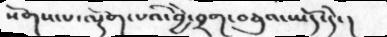སོགས་པ་ལྡོག་པའི་བྱེ་བྲག་བཅུའ་ཡོད་དེ་།
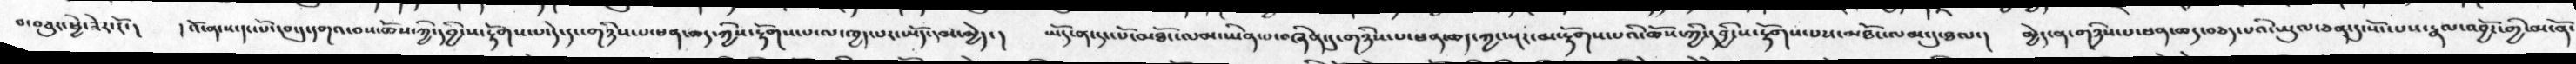བ་བཅུར་ཕྱེ་ཟེར་རོ་།   ། འོ་ན་ས་དང་པོ་རབ་དུ་དགའ་བས་ཆོས་ཀྱི་དབྱིངས་རྟོགས་པ་དེ་དང་གཉིས་པ་ཕན་ཆད་ཀྱིས་རྟོགས་པ་ལ་ཁྱད་པར་ཡོད་དམ་མྱེད་།   ཡོད་ན་དང་པོ་མཐོང་ལམ་ཡིན་པ་བཞིན་དུ་གཉིས་པ་ཕན་ཆད་ཀྱང་སྔར་མ་རྟོགས་པའི་ཆོས་ཀྱི་དབྱིངས་རྟོགས་པས་མཐོང་ལམ་དུ་ཐལ་།   མྱེད་ན་གཉིས་པ་ཕན་ཆད་བཅད་པའི་ཡུལ་ཅན་དུ་སོང་པས་རྣལ་འབྱོར་གྱི་མངོན་
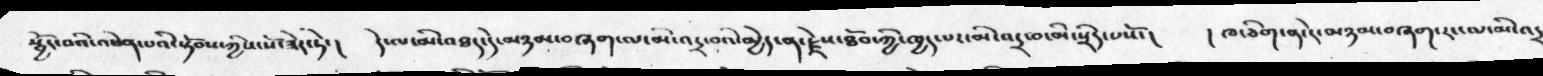སྦྱོར་བའི་འཕེན་པའི་སྟོབས་ཀྱིས་སོ་ཟེར་ཏེ་།    དེ་ལ་མི་འཐད་དེ་མཉམ་བཞག་ལ་མི་འདྲ་བའི་མྱེད་ན་རྗེས་ཐོབ་ཀྱི་ཁྱད་པར་མི་འདྲ་བ་མི་སྲིད་པསོ་།   ། ཁ་ཅིག་ན་རེ་མཉམ་བཞག་རང་ལ་མི་འདྲ
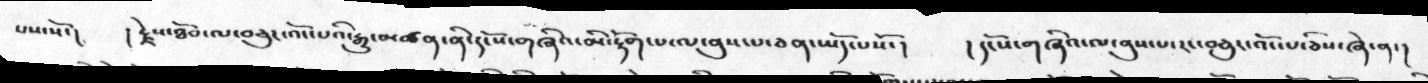པས་སོ་།   ། རྗེས་ཐོབ་ལ་བཅུར་འོང་པའི་རྒྱུ་མཚན་ནི་དང་པོ་གཞིའ་མི་རྟོག་པ་ལ་ནུས་པ་ཅན་ཡོད་པསོ་།    ། དངོས་གཞིའ་ལ་ནུས་པ་རང་བཅུར་འོང་པ་ཅིས་ཞེ་ན་།
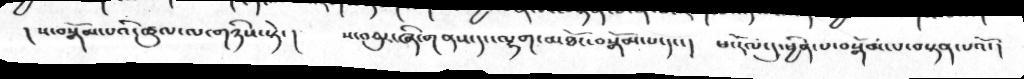།ས་བསྒོམ་པའི་ཚུལ་ལ་གཉིས་སྟེ་།   ས་བཅུར་ཞི་གནས་དང་ལྷག་མཐོང་བསྒོམ་པ་དང་།   ཕ་རོལ་དུ་ཕྱིན་པ་བསྒོམ་པ་བསྟན་པའོ་།
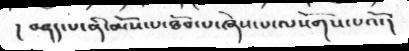།  བཤད་པ་ནི་མོས་པ་ཐོབ་པ་ཞེས་པ་ལསོགས་པའོ་།
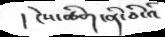།  ངེས་ཚིག་ནི་ཅི་འི
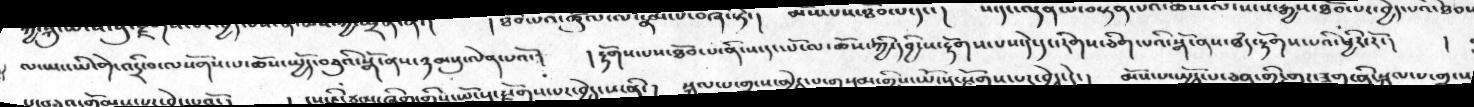ལ་ཡང་ཡི་གེ་འདྲི་བ་ལསོགས་པ་ཆོས་སྤྱོད་བཅུའི་སྒོ་ནས་ཉམསུ་ལེན་པའོ་།   །རྟོགས་པས་ཐོབ་པ་ནི་ས་དང་པོ་ལ་ཆོས་ཀྱི་དབྱིངས་རྟོགས་པས་དེ་དང་རིགས་ཅིག་པའི་སྒོ་ནས་ཐཾད་རྟོགས་པའི་ཕྱིར་རོ་།    །
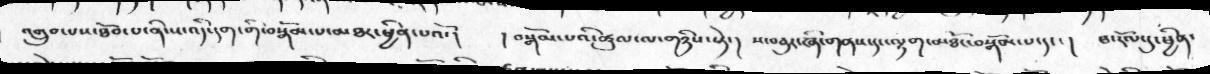འགྲུབ་པས་ཐོབ་པ་ནི་ས་འདི་དག་གི་བསྒོམ་པ་མཐར་ཕྱིན་པའོ་།   །བསྒོམ་པའི་ཚུལ་ལ་གཉིས་སྟེ་།    ས་བཅུར་ཞི་གནས་དང་ལྷག་མཐོང་བསྒོམ་པ་དང་།  ཕ་རོལ་དུ་ཕྱིན་
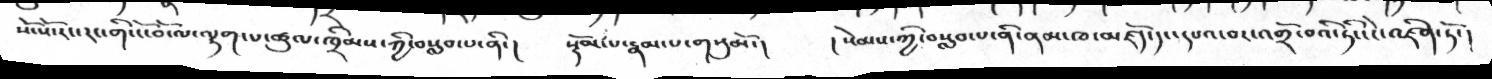སོ་སོ་རང་རང་གི་ངོ་བོ་ལ་ལྷག་པ་ཚུལ་ཁྲིམས་ཀྱི་བསླབ་པ་ནི་།   སྡོམ་པ་རྣམ་པ་གསུམོ་།   ། སེམས་ཀྱི་བསླབ་པ་ནི་ནམ་ཁ་མཛོད་དང་དཔའ་བར་འགྲོ་བའི་ཏིང་ངེ་འཛིན་ཏོ་།
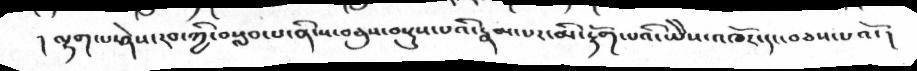། ་ལྷག་པ་ཤེས་རབ་ཀྱི་བསླབ་པ་ནི་ས་བཅུས་བསྡུས་པའི་རྣམ་པར་མི་རྟོག་པའི་ཡཻས་འཁོར་དང་བཅས་པའོ་།
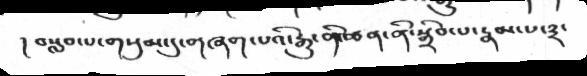། བསླབ་པ་གསུམ་དུ་གཞག་པའི་རྒྱུ་ནི་ཚན་ནི་སྒྲིབ་པ་རྣམ་པ་༣་
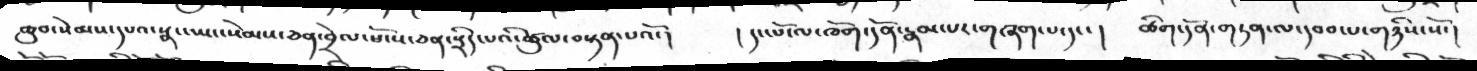ཆུབ་སེམས་དཔའ་སྣང་ཡང་སེམས་ཅན་བྲེལ་ཕོངས་ཅན་སྲིད་པའི་ཚུལ་བསྟན་པའོ་།  །དང་པོ་ལ་ཁོག་དོན་རྣམ་པར་གཞག་པ་དང་།   ཚིག་དོན་གཏན་ལ་དབབ་པ་གཉིས་སོ་།
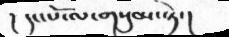། དང་པོ་ལ་གསུམ་སྟེ་།
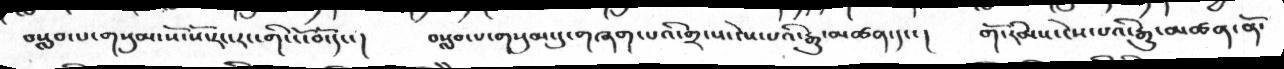བསླབ་པ་གསུམ་སོ་སོ་རང་རང་གི་ངོ་བོ་དང་།    བསླབ་པ་གསུམ་དུ་གཞག་པའི་གྲངས་ངེས་པའི་རྒྱུ་མཚན་དང་།   གོ་རིམས་ངེས་པའི་རྒྱུ་མཚན་ནོ་
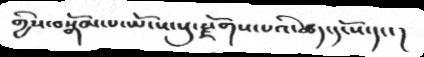གྱིས་བསྒོམ་པ་ཡོངས་སུ་རྫོགས་པའི་ཚད་དངོས་དང་།
